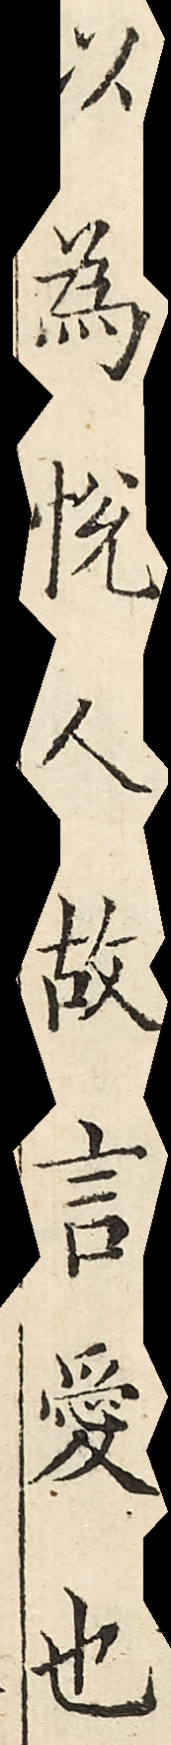以為悅人故言愛也
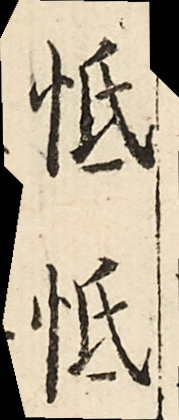忯忯
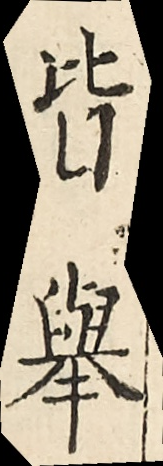皆舉
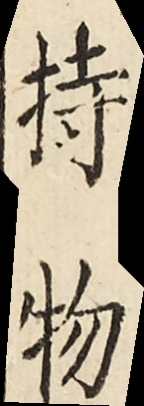持物
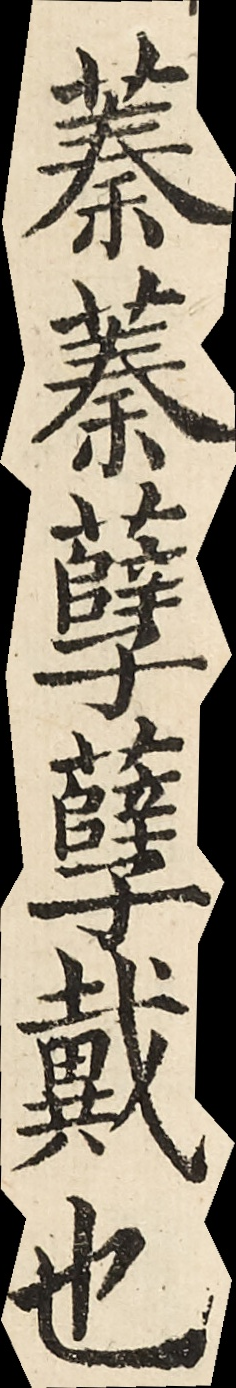蓁蓁孽孽戴也
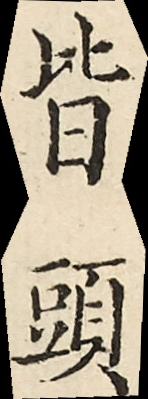皆頭
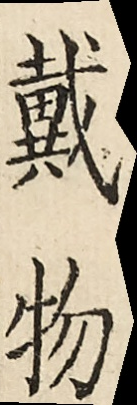戴物
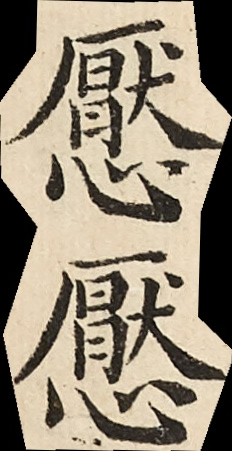懕懕
